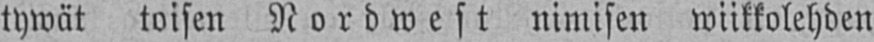tywät toisen Nordwest nimisen wiikkolehden
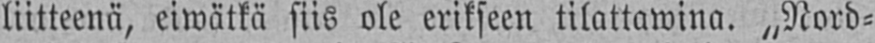liitteenä, eiwätkä siis ole erikseen tilattawina. „Nord-
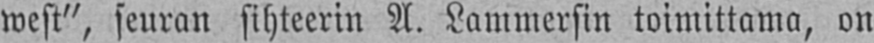west", seuran sihteerin A. Lammersin toimittama, on
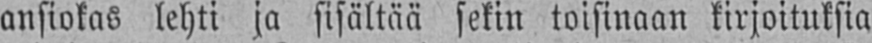ansiokas lehti ja sisältää sekin toisinaan kirjoituksia
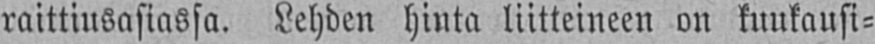raittiusasiassa. Lehden hinta liitteineen on kuukausi-
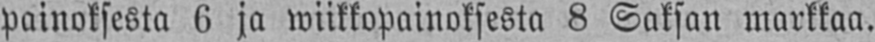painoksesta 6 ja wiikkopainoksesta 8 Saksan markkaa.
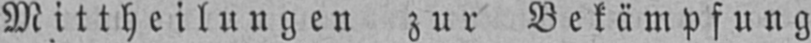Mittheilungen zur Bekämpfung
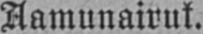Aamunairut.
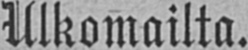Ulkomailta.
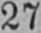27
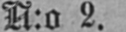N:o 2.
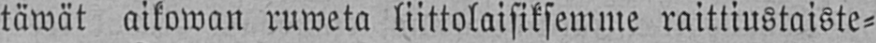täwät aikowan ruweta liittolaisiksemme raittiustaiste-
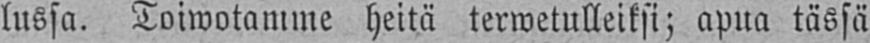lussa. Toiwotamme heitä terwetulleiksi; apua tässä
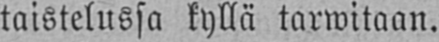taistelussa kyllä tarwitaan.
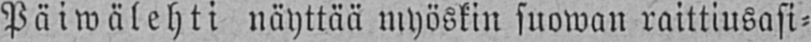Päiwälehti näyttää myöskin suowan raittiusasi-
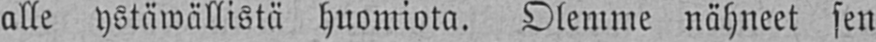alle ystäwällistä huomiota. Olemme nähneet sen
